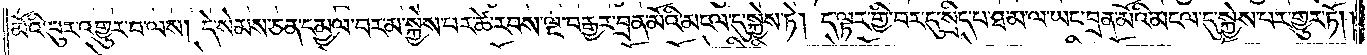མོའི་བུར་འགྱུར་བ་ལས། དེ་སེམས་ཅན་དམྱལ་བར་མ་སྐྱེས་པར་ཚེ་རབས་ལྔ་བརྒྱར་བྲན་མོའི་མངལ་དུ་སྐྱེས་ཏེ། ད་ལྟར་གྱི་བར་དུ་སྲིད་པ་ཐ་མ་ལ་ཡང་བྲན་མོའི་མངལ་དུ་སྐྱེས་པར་གྱུར་ཏོ། །
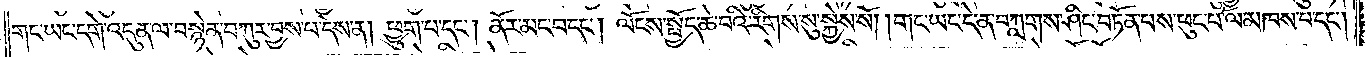གང་ཡང་དགེ་འདུན་ལ་བསྙེན་བཀུར་བྱས་པ་དེས་ན། ཕྱུག་པ་དང༌། ནོར་མང་བ་དང༌། ལོངས་སྤྱོད་ཆེ་བའི་རིགས་སུ་སྐྱེས་སོ། །གང་ཡང་དེ་ན་བཀླགས་ཤིང་བཏོན་པས་ཕུང་པོ་ལ་མཁས་པ་དང༌།
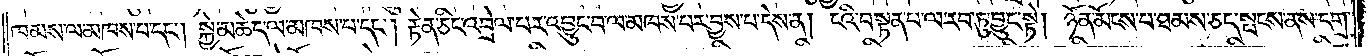ཁམས་ལ་མཁས་པ་དང༌། སྐྱེ་མཆེད་ལ་མཁས་པ་དང༌། རྟེན་ཅིང་འབྲེལ་པར་འབྱུང་བ་ལ་མཁས་པར་བྱས་པ་དེས་ན། ངའི་བསྟན་པ་ལ་རབ་ཏུ་བྱུང་སྟེ། ཉོན་མོངས་པ་ཐམས་ཅད་སྤངས་ནས་དགྲ་
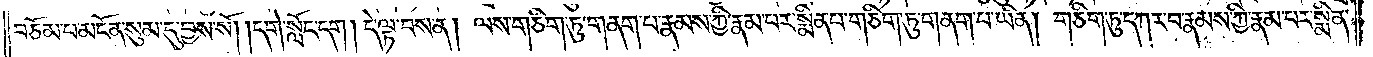བཅོམ་པ་མངོན་སུམ་དུ་བྱས་སོ། །དགེ་སློང་དག །དེ་ལྟ་བས་ན། ལས་གཅིག་ཏུ་གནག་པ་རྣམས་ཀྱི་རྣམ་པར་སྨིན་པ་གཅིག་ཏུ་གནག་པ་ཡིན། གཅིག་ཏུ་དཀར་བ་རྣམས་ཀྱི་རྣམ་པར་སྨིན་
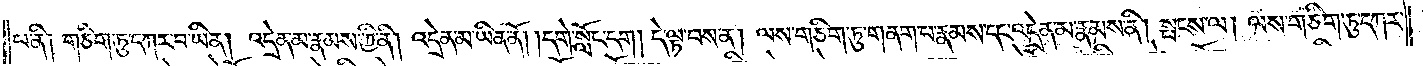པ་ནི། གཅིག་ཏུ་དཀར་བ་ཡིན། འདྲེན་མ་རྣམས་ཀྱི་ནི། འདྲེན་མ་ཡིན་ནོ། །དགེ་སློང་དག །དེ་ལྟ་བས་ན། ལས་གཅིག་ཏུ་གནག་པ་རྣམས་དང་འདྲེན་མ་རྣམས་ནི། སྤངས་ལ། ལས་གཅིག་ཏུ་དཀར་
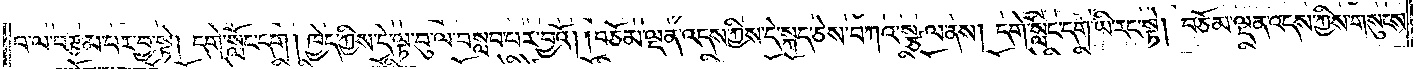བ་ལ་བརྩམ་པར་བྱ་སྟེ། དགེ་སློང་དག །ཁྱེད་ཀྱིས་དེ་ལྟ་བུ་ལ་བསླབ་པར་བྱའོ། །བཅོམ་ལྡན་འདས་ཀྱིས་དེ་སྐད་ཅེས་བཀའ་སྩལ་ནས། དགེ་སློང་དག་ཡི་རང་སྟེ། བཅོམ་ལྡན་འདས་ཀྱིས་གསུངས་
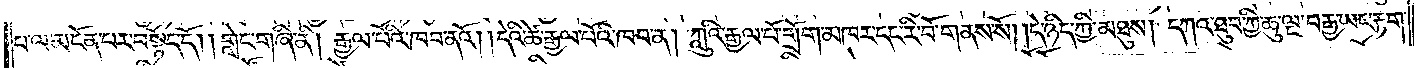པ་ལ་མངོན་པར་བསྟོད་དོ། །གླེང་གཞི་ནི། རྒྱལ་པོའི་ཁབ་ནའོ། །དེའི་ཚེ་རྒྱལ་པོའི་ཁབ་ན། ཀླུའི་རྒྱལ་པོ་གྲོག་མཁར་དང་རི་བོ་གནས་སོ། །དེ་ཉིད་ཀྱི་མཐུས། དཀའ་ཐུབ་ཀྱི་ཆུ་ལྔ་བརྒྱ་ཡང་རྟག་
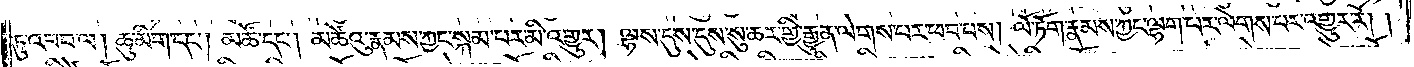ཏུ་འབབ་ལ། ཆུ་མིག་དང༌། མཚོ་དང༌། མཚེའུ་རྣམས་ཀྱང་སྐམ་པར་མི་འགྱུར། ལྷས་དུས་དུས་སུ་ཆར་གྱི་རྒྱུན་ལེགས་པར་ཕབ་པས། ལོ་ཏོག་རྣམས་ཀྱང་ལྷག་པར་ལེགས་པར་འགྱུར་རོ། །
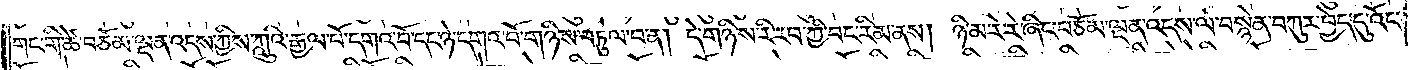གང་གི་ཚེ་བཅོམ་ལྡན་འདས་ཀྱིས་ཀླུའི་རྒྱལ་པོ་དགའ་བོ་དང་ཉེ་དགའ་བོ་གཉིས་བཏུལ་བ་ན། དེ་གཉིས་རི་རབ་ཀྱི་བང་རིམ་ནས། ཉི་མ་རེ་རེ་ཞིང་བཅོམ་ལྡན་འདས་ལ་བསྙེན་བཀུར་བྱེད་དུ་འོང་
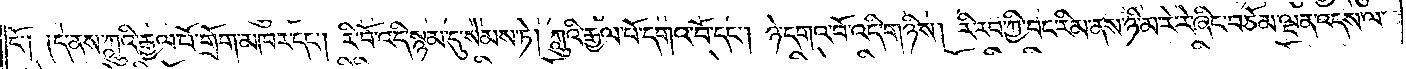ངོ༑ ༑དེ་ནས་ཀླུའི་རྒྱལ་པོ་གྲོག་མཁར་དང༌། རི་བོ་འདི་སྙམ་དུ་སེམས་ཏེ། ཀླུའི་རྒྱལ་པོ་དགའ་བོ་དང༌། ཉེ་དགའ་བོ་འདི་གཉིས། རི་རབ་ཀྱི་བང་རིམ་ནས་ཉི་མ་རེ་རེ་ཞིང་བཅོམ་ལྡན་འདས་ལ་
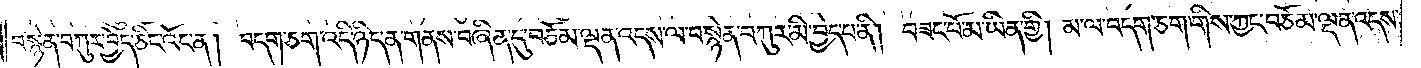བསྙེན་བཀུར་བྱེད་ཅིང་འོང་ན། བདག་ཅག་འདི་ཉིད་ན་གནས་བཞིན་དུ་བཅོམ་ལྡན་འདས་ལ་བསྙེན་བཀུར་མི་བྱེད་པ་ནི། བཟང་པོ་མ་ཡིན་གྱི། མ་ལ་བདག་ཅག་གིས་ཀྱང་བཅོམ་ལྡན་འདས་
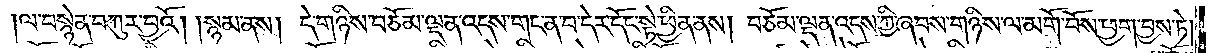ལ་བསྙེན་བཀུར་བྱའོ། །སྙམ་ནས། དེ་གཉིས་བཅོམ་ལྡན་འདས་གང་ན་བ་དེར་དོང་སྟེ་ཕྱིན་ནས། བཅོམ་ལྡན་འདས་ཀྱི་ཞབས་གཉིས་ལ་མགོ་བོས་ཕྱག་བྱས་ཏེ།
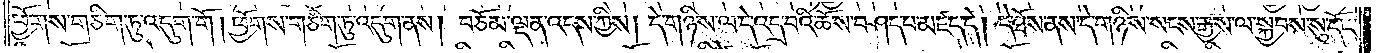ཕྱོགས་གཅིག་ཏུ་འདུག་གོ །ཕྱོགས་གཅིག་ཏུ་འདུག་ནས། བཅོམ་ལྡན་འདས་ཀྱིས། དེ་གཉིས་ལ་དེ་འདྲ་བའི་ཆོས་བཤད་པ་མཛད་དེ། དེ་ཐོས་ནས་དེ་གཉིས་སངས་རྒྱས་ལ་སྐྱབས་སུ་དོང་
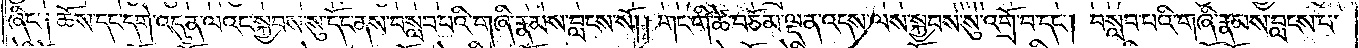ཞིང༌། ཆོས་དང་དགེ་འདུན་ལའང་སྐྱབས་སུ་དོང་ནས་བསླབ་པའི་གཞི་རྣམས་བླངས་སོ། །གང་གི་ཚེ་བཅོམ་ལྡན་འདས་ལས་སྐྱབས་སུ་འགྲོ་བ་དང༌། བསླབ་པའི་གཞི་རྣམས་བླངས་པ་
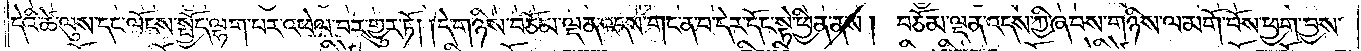དེའི་ཚེ་ལུས་དང་ལོངས་སྤྱོད་ལྷག་པར་འཕེལ་བར་གྱུར་ཏོ། །དེ་གཉིས་བཅོམ་ལྡན་འདས་གང་ན་བ་དེར་དོང་སྟེ་ཕྱིན་ནས། བཅོམ་ལྡན་འདས་ཀྱི་ཞབས་གཉིས་ལ་མགོ་བོས་ཕྱག་བྱས་
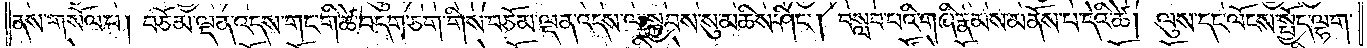ནས་གསོལ་བ། བཅོམ་ལྡན་འདས་གང་གི་ཚེ་བདག་ཅག་གིས་བཅོམ་ལྡན་འདས་ལ་སྐྱབས་སུ་མཆིས་ཤིང༌། བསླབ་པའི་གཞི་རྣམས་མནོས་པ་དེའི་ཚེ། ལུས་དང་ལོངས་སྤྱོད་ལྷག་
